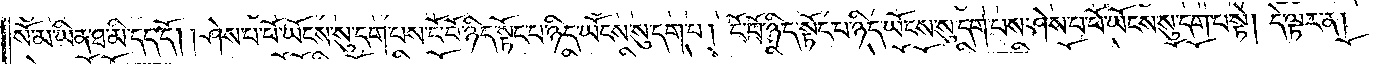སོ་མ་ཡིན་ཐ་མི་དད་དོ། །ཤེས་པ་པོ་ཡོངས་སུ་དག་པས་ངོ་བོ་ཉིད་སྟོང་པ་ཉིད་ཡོངས་སུ་དག་པ། ངོ་བོ་ཉིད་སྟོང་པ་ཉིད་ཡོངས་སུ་དག་པས་ཤེས་པ་པོ་ཡོངས་སུ་དག་པ་སྟེ། དེ་ལྟར་ན།
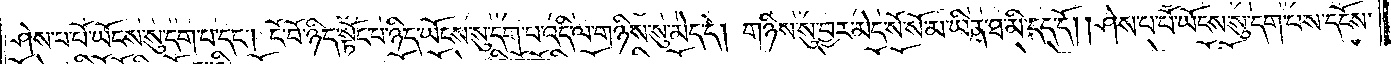ཤེས་པ་པོ་ཡོངས་སུ་དག་པ་དང༌། ངོ་བོ་ཉིད་སྟོང་པ་ཉིད་ཡོངས་སུ་དག་པ་འདི་ལ་གཉིས་སུ་མེད་དེ། གཉིས་སུ་བྱར་མེད་སོ་སོ་མ་ཡིན་ཐ་མི་དད་དོ། །ཤེས་པ་པོ་ཡོངས་སུ་དག་པས་དངོས་
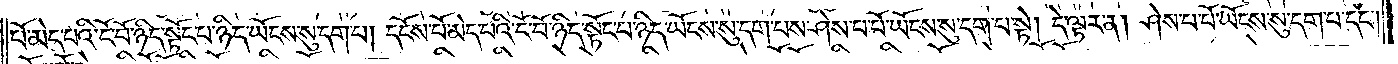པོ་མེད་པའི་ངོ་བོ་ཉིད་སྟོང་པ་ཉིད་ཡོངས་སུ་དག་པ། དངོས་པོ་མེད་པའི་ངོ་བོ་ཉིད་སྟོང་པ་ཉིད་ཡོངས་སུ་དག་པས་ཤེས་པ་པོ་ཡོངས་སུ་དག་པ་སྟེ། དེ་ལྟར་ན། ཤེས་པ་པོ་ཡོངས་སུ་དག་པ་དང༌།
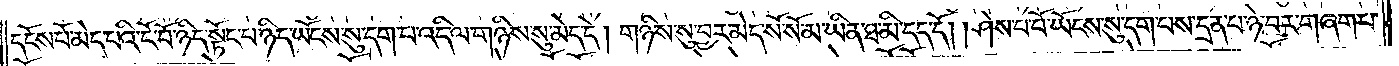དངོས་པོ་མེད་པའི་ངོ་བོ་ཉིད་སྟོང་པ་ཉིད་ཡོངས་སུ་དག་པ་འདི་ལ་གཉིས་སུ་མེད་དེ། གཉིས་སུ་བྱར་མེད་སོ་སོ་མ་ཡིན་ཐ་མི་དད་དོ། །ཤེས་པ་པོ་ཡོངས་སུ་དག་པས་དྲན་པ་ཉེ་བར་གཞག་པ་
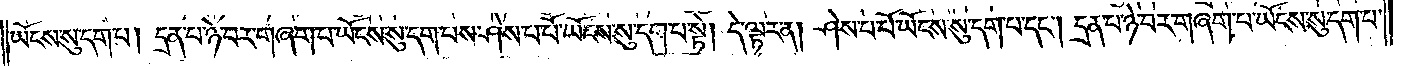ཡོངས་སུ་དག་པ། དྲན་པ་ཉེ་བར་གཞག་པ་ཡོངས་སུ་དག་པས་ཤེས་པ་པོ་ཡོངས་སུ་དག་པ་སྟེ། དེ་ལྟར་ན། ཤེས་པ་པོ་ཡོངས་སུ་དག་པ་དང༌། དྲན་པ་ཉེ་བར་གཞག་པ་ཡོངས་སུ་དག་པ་
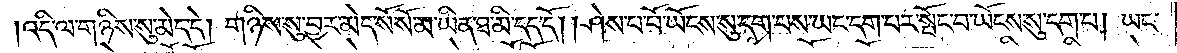འདི་ལ་གཉིས་སུ་མེད་དེ། གཉིས་སུ་བྱར་མེད་སོ་སོ་མ་ཡིན་ཐ་མི་དད་དོ། །ཤེས་པ་པོ་ཡོངས་སུ་དག་པས་ཡང་དག་པར་སྤོང་བ་ཡོངས་སུ་དག་པ། ཡང་
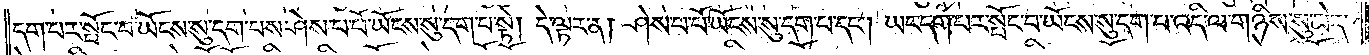དག་པར་སྤོང་བ་ཡོངས་སུ་དག་པས་ཤེས་པ་པོ་ཡོངས་སུ་དག་པ་སྟེ། དེ་ལྟར་ན། ཤེས་པ་པོ་ཡོངས་སུ་དག་པ་དང༌། ཡང་དག་པར་སྤོང་བ་ཡོངས་སུ་དག་པ་འདི་ལ་གཉིས་སུ་མེད་
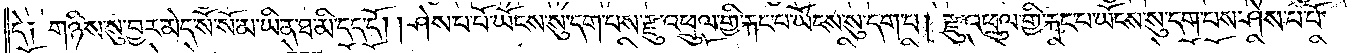དེ༑ གཉིས་སུ་བྱར་མེད་སོ་སོ་མ་ཡིན་ཐ་མི་དད་དོ། །ཤེས་པ་པོ་ཡོངས་སུ་དག་པས་རྫུ་འཕྲུལ་གྱི་རྐང་པ་ཡོངས་སུ་དག་པ། རྫུ་འཕྲུལ་གྱི་རྐང་པ་ཡོངས་སུ་དག་པས་ཤེས་པ་པོ་
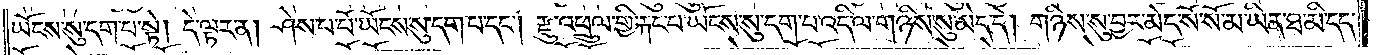ཡོངས་སུ་དག་པ་སྟེ། དེ་ལྟར་ན། ཤེས་པ་པོ་ཡོངས་སུ་དག་པ་དང༌། རྫུ་འཕྲུལ་གྱི་རྐང་པ་ཡོངས་སུ་དག་པ་འདི་ལ་གཉིས་སུ་མེད་དེ། གཉིས་སུ་བྱར་མེད་སོ་སོ་མ་ཡིན་ཐ་མི་དད་
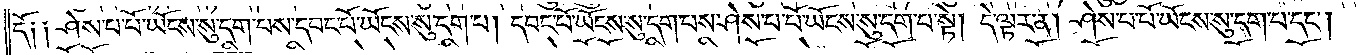དོ༑ ༑ཤེས་པ་པོ་ཡོངས་སུ་དག་པས་དབང་པོ་ཡོངས་སུ་དག་པ། དབང་པོ་ཡོངས་སུ་དག་པས་ཤེས་པ་པོ་ཡོངས་སུ་དག་པ་སྟེ། དེ་ལྟར་ན། ཤེས་པ་པོ་ཡོངས་སུ་དག་པ་དང༌།
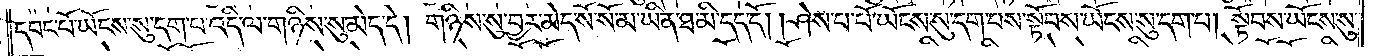དབང་པོ་ཡོངས་སུ་དག་པ་འདི་ལ་གཉིས་སུ་མེད་དེ། གཉིས་སུ་བྱར་མེད་སོ་སོ་མ་ཡིན་ཐ་མི་དད་དོ། །ཤེས་པ་པོ་ཡོངས་སུ་དག་པས་སྟོབས་ཡོངས་སུ་དག་པ། སྟོབས་ཡོངས་སུ་
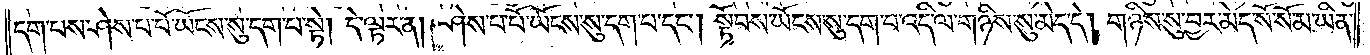དག་པས་ཤེས་པ་པོ་ཡོངས་སུ་དག་པ་སྟེ། དེ་ལྟར་ན། ཤེས་པ་པོ་ཡོངས་སུ་དག་པ་དང༌། སྟོབས་ཡོངས་སུ་དག་པ་འདི་ལ་གཉིས་སུ་མེད་དེ། གཉིས་སུ་བྱར་མེད་སོ་སོ་མ་ཡིན་
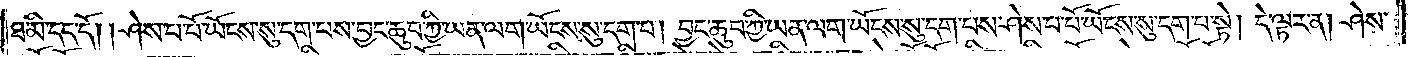ཐ་མི་དད་དོ། །ཤེས་པ་པོ་ཡོངས་སུ་དག་པས་བྱང་ཆུབ་ཀྱི་ཡན་ལག་ཡོངས་སུ་དག་པ། བྱང་ཆུབ་ཀྱི་ཡན་ལག་ཡོངས་སུ་དག་པས་ཤེས་པ་པོ་ཡོངས་སུ་དག་པ་སྟེ། དེ་ལྟར་ན། ཤེས་
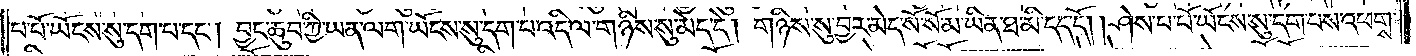པ་པོ་ཡོངས་སུ་དག་པ་དང༌། བྱང་ཆུབ་ཀྱི་ཡན་ལག་ཡོངས་སུ་དག་པ་འདི་ལ་གཉིས་སུ་མེད་དེ། གཉིས་སུ་བྱར་མེད་སོ་སོ་མ་ཡིན་ཐ་མི་དད་དོ། །ཤེས་པ་པོ་ཡོངས་སུ་དག་པས་འཕགས་
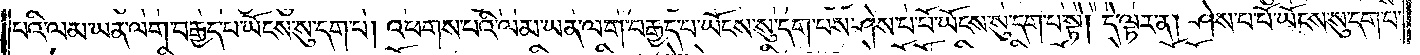པའི་ལམ་ཡན་ལག་བརྒྱད་པ་ཡོངས་སུ་དག་པ། འཕགས་པའི་ལམ་ཡན་ལག་བརྒྱད་པ་ཡོངས་སུ་དག་པས་ཤེས་པ་པོ་ཡོངས་སུ་དག་པ་སྟེ། དེ་ལྟར་ན། ཤེས་པ་པོ་ཡོངས་སུ་དག་པ་
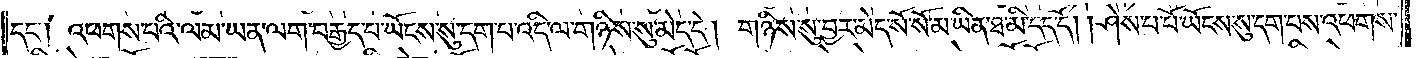དང༌། འཕགས་པའི་ལམ་ཡན་ལག་བརྒྱད་པ་ཡོངས་སུ་དག་པ་འདི་ལ་གཉིས་སུ་མེད་དེ། གཉིས་སུ་བྱར་མེད་སོ་སོ་མ་ཡིན་ཐ་མི་དད་དོ། །ཤེས་པ་པོ་ཡོངས་སུ་དག་པས་འཕགས་
